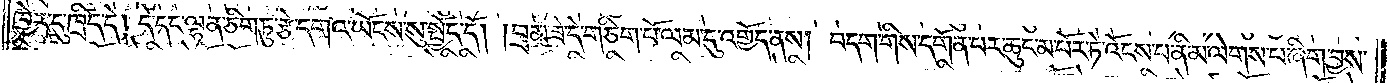ཁྱེར་དུ་ཁྲོད་དེ། དེ་དང་ལྷན་ཅིག་ཏུ་རྩེ་དགའ་ཡོངས་སུ་སྤྱོད་དོ། །བྲམ་ཟེ་དེ་གཅིག་པོ་ལམ་དུ་འགྱོད་ནས། བདག་གིས་དགོན་པར་ཆུང་མ་པོར་ཏེ་འོངས་པ་ནི་མ་ལེགས་པ་ཞིག་བྱས་
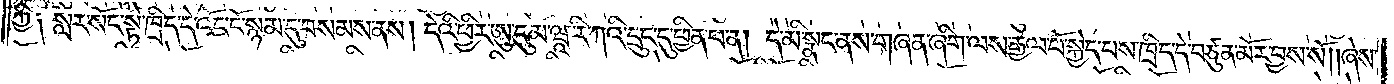ཀྱི༑ སླར་སོང་སྟེ་ཁྲིད་དེ་འོང་ངོ་སྙམ་དུ་བསམས་ནས། དེའི་ཕྱིར་ཨུ་དུམ་ཝཱ་རི་ཀའི་དྲུང་དུ་ཕྱིན་པ་ན། དེ་མི་སྣང་ནས་གཞན་ཞིག་ལས་རྒྱལ་པོ་སྐྱེད་པས་ཁྲིད་དེ་བཙུན་མོར་བྱས་སོ། །ཞེས་
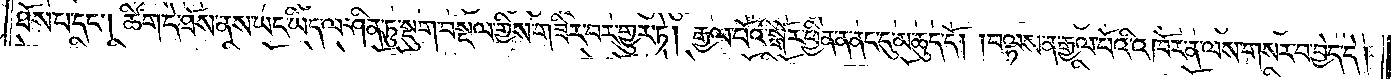ཐོས་པ་དང༌། ཚིག་དེ་ཐོས་ནས་ཡང་ཡིད་ལ་ཤིན་ཏུ་སྡུག་བསྔལ་གྱིས་གཟིར་བར་གྱུར་ཏེ། རྒྱལ་པོའི་སྒོར་ཕྱིན་ན་ནང་དུ་མ་ཆུད་དོ། །བལྟས་ན་རྒྱལ་པོའི་འཁོར་ན་ལས་གསར་བ་བྱེད་དེ།
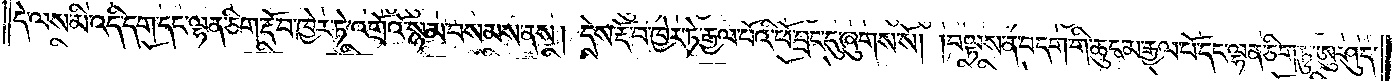དེ་ལས་མི་འདི་དག་དང་ལྷན་ཅིག་རྡོ་བ་ཁྱེར་ཏེ་འགྲོའོ་སྙམ་བསམས་ནས། དེས་རྡོ་བ་ཁྱེར་ཏེ་རྒྱལ་པོའི་ཕོ་བྲང་དུ་ཞུགས་སོ། །བལྟས་ན་བདག་གི་ཆུང་མ་རྒྱལ་པོ་དང་ལྷན་ཅིག་ཏུ་ཨུ་ཤུད་
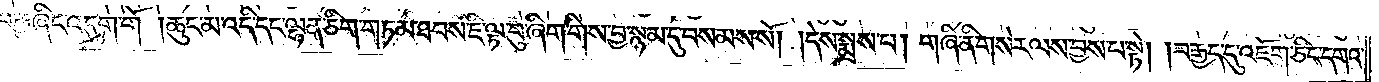བརྒྱ་ཞིང་འདུག་གོ །ཆུང་མ་འདི་དང་ལྷན་ཅིག་གཏམ་ཐབས་ཇི་ལྟ་བུ་ཞིག་གིས་བྱ་སྙམ་དུ་བསམས་སོ། །དེས་སྨྲས་པ། གཞི་ནི་གསེར་ལས་བྱས་པ་སྟེ། །བརྒྱད་དུ་འཇོག་ཅིང་དགའ་
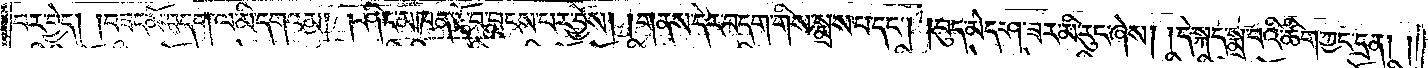བར་བྱེད། །བཟང་མོ་བདག་ལ་མི་དགའ་མ། །ཤིང་མཁན་རྡོ་བ་བླངས་པར་བྱོས། །གནས་དེར་བདག་གིས་སྨྲས་པ་དང༌། །བུད་མེད་ཤ་ཟར་མི་རུང་ཞེས། །དེ་སྐད་སྨྲ་བའི་ཚིག་ཀྱང་དྲན། །
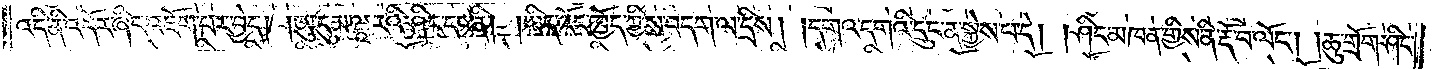འདི་ནི་འདོར་ཞིང་འཇོག་པར་བྱེད། །ཨུ་དུམ་ཝཱ་རའི་ཤིང་དང་ནི། །ཡིད་འོང་ཁྱོད་ཀྱིས་བདག་ལ་དྲིས། །དགའ་དགའི་དྲུང་ན་སྐྱེས་པ་དེ། །ཤིང་མཁན་གྱིས་ནི་རྡོ་བ་ལོང༌། །ཆུ་གྲོག་ཤིང་
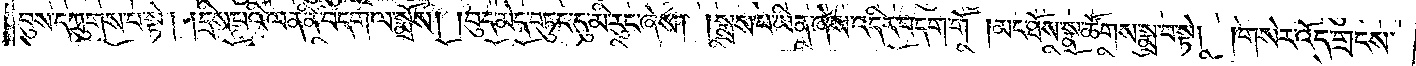བུས་དཀྲུགས་པ་སྟེ། དྲིས་པའི་ལན་ནི་བདག་ལ་སྨྲོས། བུད་མེད་བཏུང་དུ་མི་རུང་ཞེས། །སྨྲས་པ་ཡིན་ཞེས་འདིར་བདག་གོ། །མང་ཐོས་ནས་ཚོགས་སྨྲ་བ་སྟེ། གསེར་འོད་གྲངས་
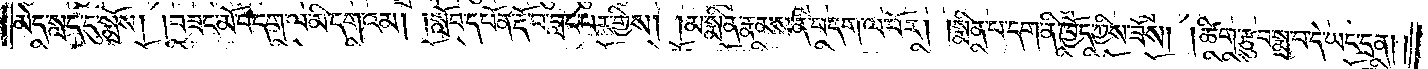མེད་སླད་དུ་སྨྲོས། །བཟང་མོ་བདག་ལ་མི་དགའམ། སློབ་དཔོན་རྡོ་བ་བླང་བར་གྱིས། །མ་སྨིན་རྣམས་ནི་བདག་ལ་མོར། །སྨིན་པ་དག་ནི་ཁྱོད་ཀྱིས་ཟོས། །ཚིག་རྩུབ་སྨྲ་བ་དེ་ཡང་དྲན། །
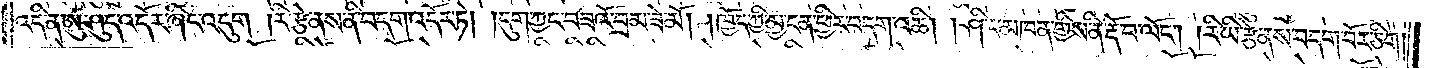འདི་ན་ཨུ་ཤུད་འདོར་ཞིང་འདུག །རི་རྩེ་ནས་ནི་བདག་འདོར་ཏེ། །དུག་ཀྱང་བཟའོ་བྲམ་ཟེ་མོ། །ཁྱོད་ཀྱི་མྱ་ངན་ཕྱིར་བདག་འཆི། །ཤིང་མཁན་གྱིས་ནི་རྡོ་བ་ལོང༌། །རི་ཡི་རྩེ་ནས་བདག་བོར་ཅིག །
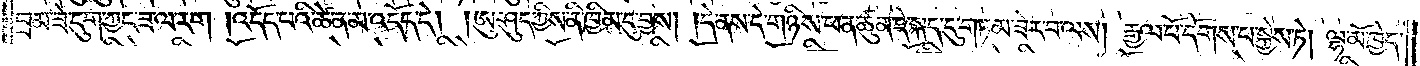བྲམ་ཟེ་དུག་ཀྱང་ཟ་ལ་རག །འདོད་པའི་ཚེ་ན་མ་འདོད་དེ། །ཨུ་ཤུད་ཀྱིས་ནི་ཁྱིམ་དུ་བྱས། །དེ་ནས་དེ་གཉིས་ཕན་ཚུན་དེ་སྐད་དུ་གཏམ་ཟེར་བ་ལས། རྒྱལ་པོ་དོགས་པ་སྐྱེས་ཏེ། ལྷ་མོ་ཁྱེད་
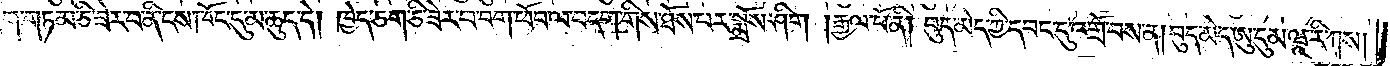ཅག་གཏམ་ཅི་ཟེར་བ་ནི་ངས་ཁོང་དུ་མ་ཆུད་དེ། ཁྱེད་ཅག་ཅི་ཟེར་བ་བག་ཕོབ་ལ་བདག་གིས་ཐོས་པར་སྨྲོས་ཤིག །རྒྱལ་པོ་ནི། བུད་མེད་ཀྱི་དབང་དུ་འགྲོ་བས་ན། བུད་མེད་ཨུ་དུམ་ཝཱ་རི་ཀས།
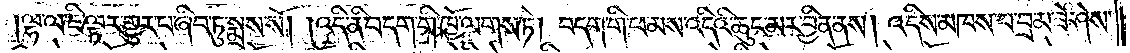ལྷ་ལ་ཇི་ལྟར་གྱུར་པ་ཞིབ་ཏུ་སྨྲས་སོ། །འདི་ནི་བདག་གི་ཁྱོ་ལགས་ཏེ། བདག་གི་ཕ་མས་འདིའི་ཆུང་མར་བྱིན་ནས། འདིས་མཁས་པ་བྲམ་ཟེ་ཤེས་
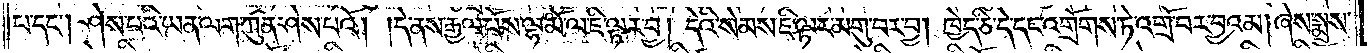པ་དང༌། ཤེས་པའི་ཡན་ལག་ཀུན་ཤེས་པའོ། །དེ་ནས་རྒྱལ་པོས་ལྷ་མོ་ལ་ཇི་ལྟར་བྱ། དེའི་སེམས་ཇི་ལྟར་མགུ་བར་བྱ། ཁྱེད་ཅི་དེ་དང་འགྲོགས་ཏེ་འགྲོ་བར་བྱའམ། ཞེས་སྨྲས་
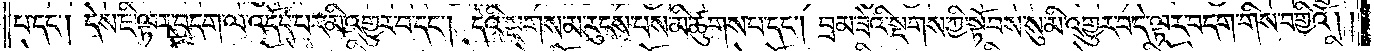པ་དང༌། དེས་ཇི་ལྟར་བདག་ལ་འདོད་པར་མི་འགྱུར་བ་དང༌། དེའི་སྔགས་མ་རུངས་པས་མི་ཚུགས་པ་དང༌། བྲམ་ཟེའི་སྔགས་ཀྱི་སྟོབས་སུ་མི་འགྱུར་བ་དེ་ལྟར་བདག་གིས་བགྱིའོ། །
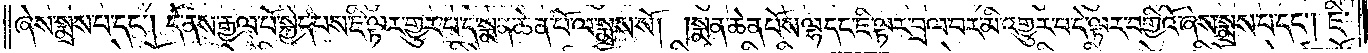ཞེས་སྨྲས་པ་དང༌། དེ་ནས་རྒྱལ་པོ་སྐྱེད་པས་ཇི་ལྟར་གྱུར་པ་དེ་སྨན་ཆེན་པོ་ལ་སྨྲས་སོ། །སྨན་ཆེན་པོས་ལྷ་དང་ཇི་ལྟར་བྲལ་བར་མི་འགྱུར་བ་དེ་ལྟར་བགྱིའོ་ཞེས་སྨྲས་པ་དང༌། ཇི་
